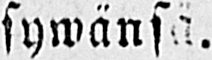sywänsä.
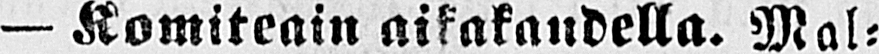— Komiteani aikakaudella. Mal-
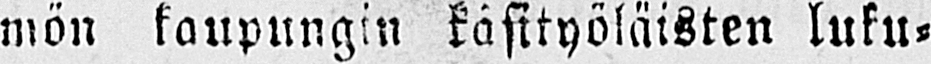mön kaupungin kâsityöläisten luku-
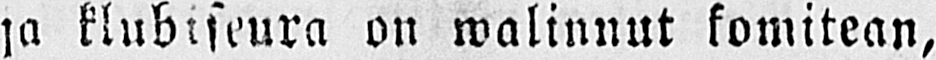ja klubiseura on walinnut komitean,
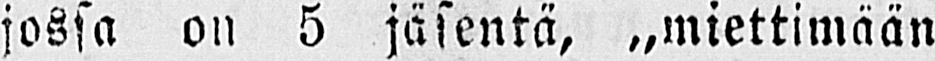jossa on 5 jäsentä, „miettimään
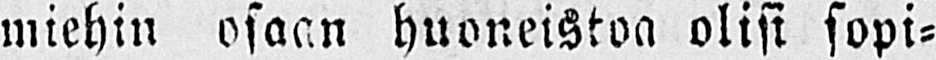miehin osaan huoneistoa olisi sopi-
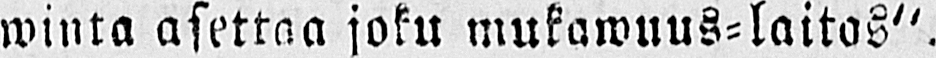winta asettaa joku mukawuus-laitos".
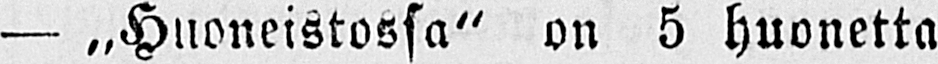— „Huoneistossa" on 5 huonetta
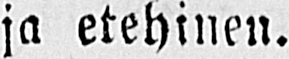ja etehinen.
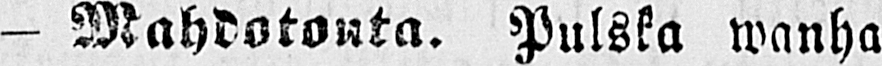— Mahdotonta. Pulska wanha
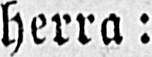herra:
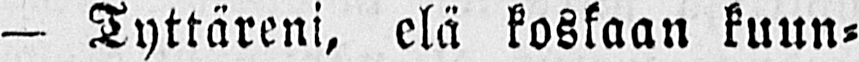— Tyttäreni, elä koskaan kuun-
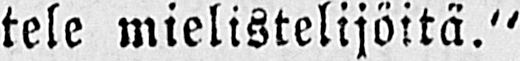tele mielistelijöitä."
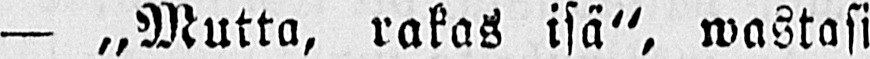— „Mutta, rakas isä", wastasi
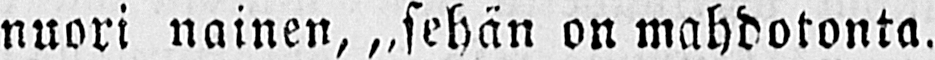nuori nainen, ˶sehän on mahdotonta.
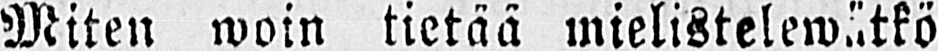Miten woin tietää mielistelewätkö
